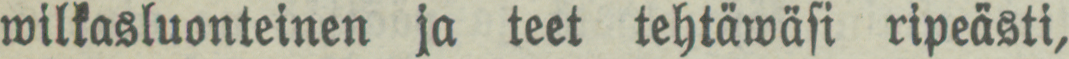wilkasluonteinen ja teet tehtäwäsi ripeästi,
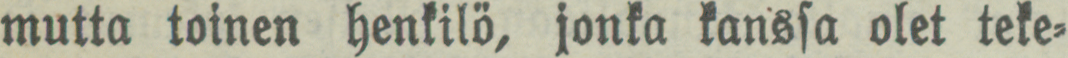mutta toinen henkilö, jonka kanssa olet teke-
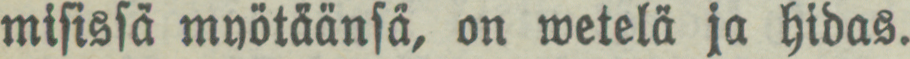misissä myötäänsä, on wetelä ja hidas.
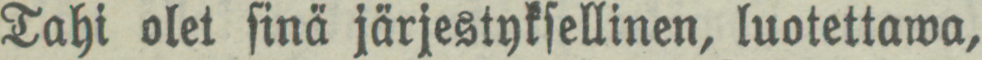Tahi olet sinä järjestyksellinen, luotettawa,
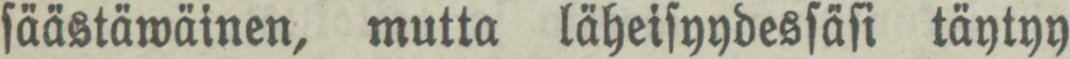säästäwäinen, mutta läheisyydessäsi täytyy
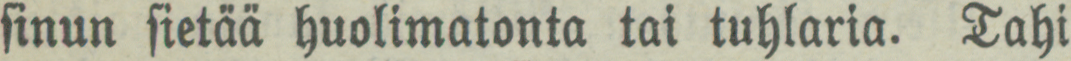sinun sietää huolimatonta tai tuhlaria. Tahi
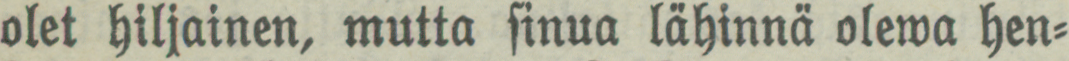olet hiljainen, mutta sinua lähinnä olewa hen-
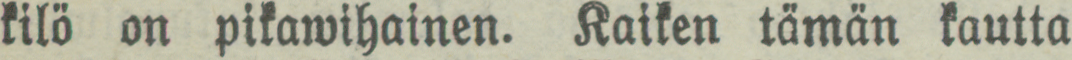kilö on pikawihainen. Kaiken tämän kautta
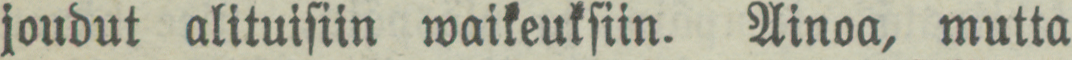joudut alituisiin waikeuksiin. Ainoa, mutta
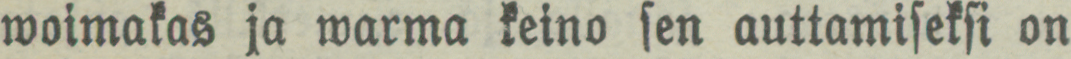woimakas ja warma keino sen auttamiseksi on
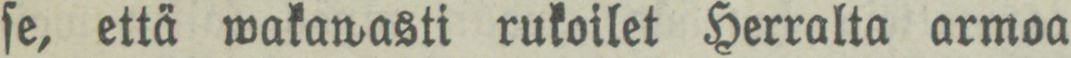se, että wakawasti rukoilet Herralta armoa
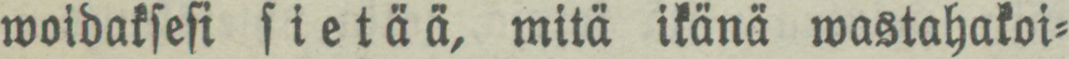woidaksesi sietää, mitä ikänä wastahakoi-
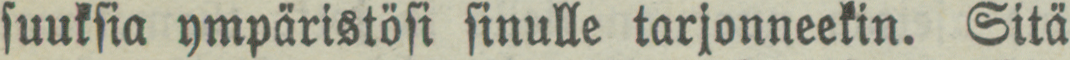suuksia ympäristösi sinulle tarjonneekin. Sitä
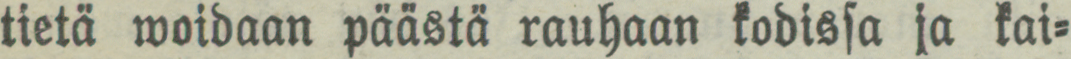tietä woidaan päästä rauhaan kodissa ja kai-
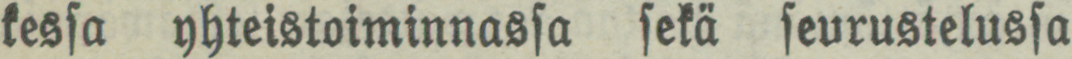kessa yhteistoiminnassa sekä seurustelussa
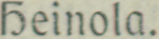Heinola.
